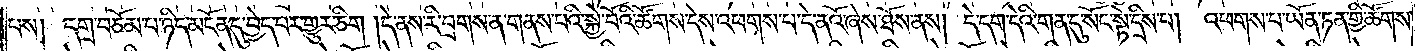པས། དགྲ་བཅོམ་པ་ཉིད་མངོན་དུ་བྱེད་པར་གྱུར་ཅིག །དེ་ནས་རི་བྲགས་ན་གནས་པའི་སྐྱེ་བོའི་ཚོགས་དེས་འཕགས་པ་དེ་ནའོ་ཞེས་ཐོས་ནས། དེ་དག་དེའི་གན་དུ་སོང་སྟེ་དྲིས་པ། འཕགས་པ་ཡོན་ཏན་གྱི་ཚོགས་
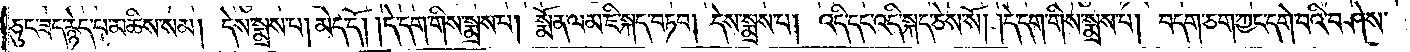ཅུང་ཟད་རྙེད་པ་མཆིས་སམ། དེས་སྨྲས་པ། མེད་དོ། །དེ་དག་གིས་སྨྲས་པ། སྨོན་ལམ་ཇི་སྐད་བཏབ། དེས་སྨྲས་པ། འདི་དང་འདི་སྐད་ཅེས་སོ། །དེ་དག་གིས་སྨྲས་པ། བདག་ཅག་ཀྱང་དགེ་བའི་བཤེས་
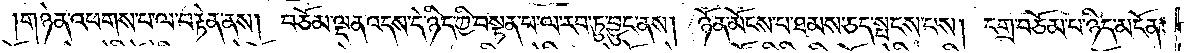གཉེན་འཕགས་པ་ལ་བརྟེན་ནས། བཅོམ་ལྡན་འདས་དེ་ཉིད་ཀྱི་བསྟན་པ་ལ་རབ་ཏུ་བྱུང་ནས། ཉོན་མོངས་པ་ཐམས་ཅད་སྤངས་པས། དགྲ་བཅོམ་པ་ཉིད་མངོན་
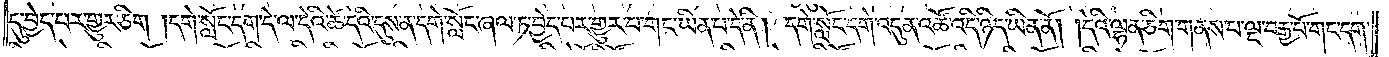དུ་བྱེད་པར་གྱུར་ཅིག །དགེ་སློང་དག་དེ་ལ་དེའི་ཚེ་དེའི་དུས་ན་དགེ་སློང་ཞལ་ཏ་བྱེད་པར་གྱུར་པ་གང་ཡིན་པ་དེ་ནི། དགེ་སློང་དགེ་འདུན་འཚོ་འདི་ཉིད་ཡིན་ནོ། །དེའི་ལྷན་ཅིག་གནས་པ་ལྔ་བརྒྱ་པོ་གང་དག་
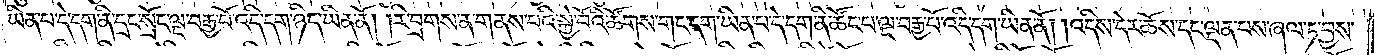ཡིན་པ་དེ་དག་ནི་དྲང་སྲོང་ལྔ་བརྒྱ་པོ་འདི་དག་ཉིད་ཡིན་ནོ། །རི་བྲགས་ན་གནས་པའི་སྐྱེ་བོའི་ཚོགས་གང་དག་ཡིན་པ་དེ་དག་ནི་ཚོང་པ་ལྔ་བརྒྱ་པོ་འདི་དག་ཡིན་ནོ། །འདིས་དེར་ཆོས་དང་ལྡན་པས་ཞལ་ཏ་བྱས་
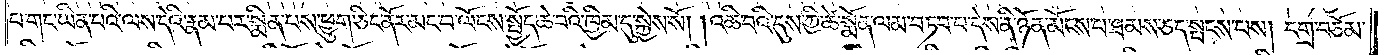པ་གང་ཡིན་པའི་ལས་དེའི་རྣམ་པར་སྨིན་པས་ཕྱུག་ཅིང་ནོར་མང་བ་ལོངས་སྤྱོད་ཆེ་བའི་ཁྱིམ་དུ་སྐྱེས་སོ། །འཆི་བའི་དུས་ཀྱི་ཚེ་སྨོན་ལམ་བཏབ་པ་དེས་ནི་ཉོན་མོངས་པ་ཐམས་ཅད་སྤངས་པས། དགྲ་བཅོམ་
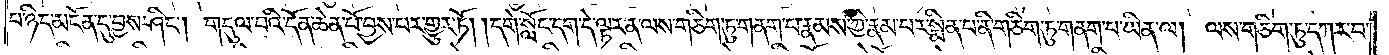པ་ཉིད་མངོན་དུ་བྱས་ཤིང༌། གདུལ་བའི་དོན་ཆེན་པོ་བྱས་པར་གྱུར་ཏོ། །དགེ་སློང་དག་དེ་ལྟར་ན་ལས་གཅིག་ཏུ་གནག་པ་རྣམས་ཀྱི་རྣམ་པར་སྨིན་པ་ནི་གཅིག་ཏུ་གནག་པ་ཡིན་ལ། ལས་གཅིག་ཏུ་དཀར་བ་
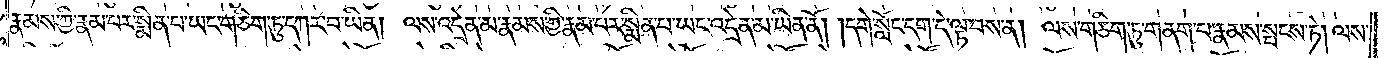རྣམས་ཀྱི་རྣམ་པར་སྨིན་པ་ཡང་གཅིག་ཏུ་དཀར་བ་ཡིན། ལས་འདྲེན་མ་རྣམས་ཀྱི་རྣམ་པར་སྨིན་པ་ཡང་འདྲེན་མ་ཡིན་ནོ། །དགེ་སློང་དག་དེ་ལྟ་བས་ན། ལས་གཅིག་ཏུ་གནག་པ་རྣམས་སྤངས་ཏེ། ལས་
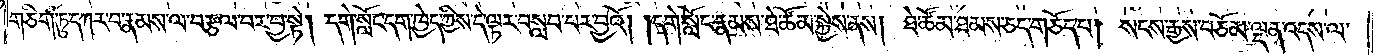གཅིག་ཏུ་དཀར་བ་རྣམས་ལ་བརྩལ་བར་བྱ་སྟེ། དགེ་སློང་དག་ཁྱེད་ཀྱིས་དེ་ལྟར་བསླབ་པར་བྱའོ། །དགེ་སློང་རྣམས་ཐེ་ཚོམ་སྐྱེས་ནས། ཐེ་ཚོམ་ཐམས་ཅད་གཅོད་པ། སངས་རྒྱས་བཅོམ་ལྡན་འདས་ལ་
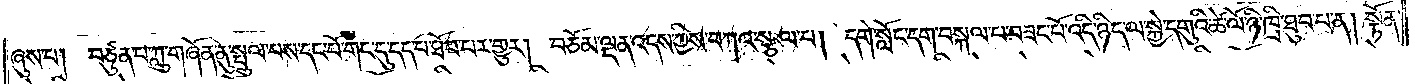ཞུས་པ། བཙུན་པ་ཀླུ་གཞོན་ནུ་སྤྲུལ་པས་དང་པོ་གང་དུ་དད་པ་ཐོབ་པར་གྱུར། བཅོམ་ལྡན་འདས་ཀྱིས་བཀའ་སྩལ་པ། དགེ་སློང་དག་བསྐལ་པ་བཟང་པོ་འདི་ཉིད་ལ་སྐྱེ་དགུའི་ཚེ་ལོ་ཉི་ཁྲི་ཐུབ་པ་ན། སྟོན་
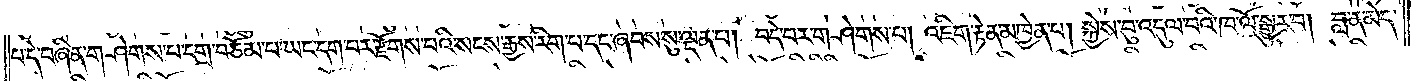པ་དེ་བཞིན་གཤེགས་པ་དགྲ་བཅོམ་པ་ཡང་དག་པར་རྫོགས་པའི་སངས་རྒྱས་རིག་པ་དང་ཞབས་སུ་ལྡན་པ། བདེ་བར་གཤེགས་པ། འཇིག་རྟེན་མཁྱེན་པ། སྐྱེས་བུ་འདུལ་བའི་ཁ་ལོ་སྒྱུར་བ། བླ་ན་མེད་
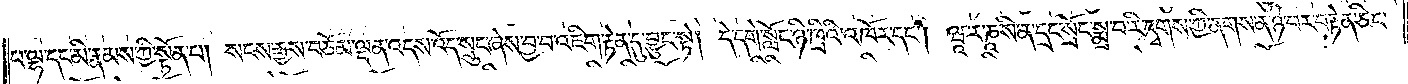པ་ལྷ་དང་མི་རྣམས་ཀྱི་སྟོན་པ། སངས་རྒྱས་བཅོམ་ལྡན་འདས་འོད་སྲུང་ཞེས་བྱ་བ་འཇིག་རྟེན་དུ་བྱུང་སྟེ། དེ་དགེ་སློང་ཉི་ཁྲིའི་འཁོར་དང༌། ཝཱ་ར་ཎཱ་སི་ན་དྲང་སྲོང་སྨྲ་བ་རི་དྭགས་ཀྱི་ནགས་ན་ཉེ་བར་བརྟེན་ཅིང་
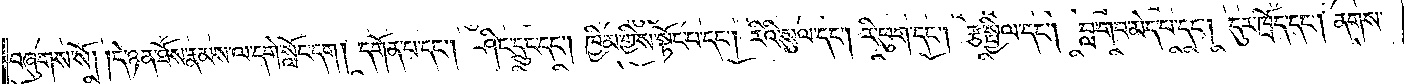བཞུགས་སོ། །དེ་ཉན་ཐོས་རྣམས་ལ་དགེ་སློང་དག། དགོན་པ་དང༌། ཤིང་དྲུང་དང༌། ཁྱིམ་གྱིས་སྟོང་པ་དང༌། རིའི་སུལ་དང༌། རི་ཕུག་དང༌། རྩ་སྤྱིལ་དང༌། བླ་གབ་མེད་པ་དང༌། དུར་ཁྲོད་དང༌། ནགས་
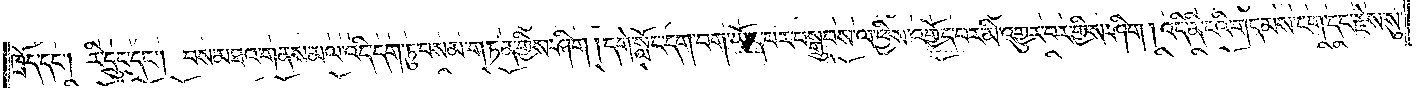ཁྲོད་དང༌། རི་དྲུང་དང༌། བས་མཐའ་གནས་མལ་འདི་དག་ཏུ་བསམ་གཏན་གྱིས་ཤིག །དགེ་སློང་དག་བག་ཡོད་པར་བསྒྲུབས་ལ་ཕྱིས་འགྱོད་པར་མི་འགྱུར་བར་གྱིས་ཤིག །འདི་ནི་ངའི་གདམས་ངག་དང་རྗེས་སུ་
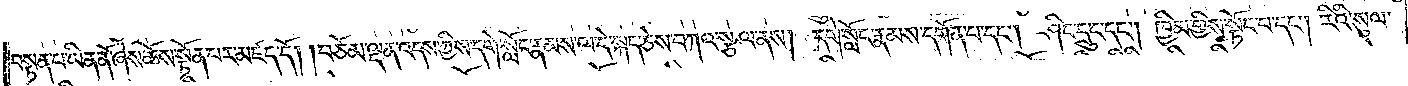བསྟན་པ་ཡིན་ནོ་ཞེས་ཆོས་སྟོན་པར་མཛད་དོ། །བཅོམ་ལྡན་འདས་ཀྱིས་དགེ་སློང་རྣམས་ལ་དེ་སྐད་ཅེས་བཀའ་སྩལ་ནས། དགེ་སློང་རྣམས་དགོན་པ་དང༌། ཤིང་དྲུང་དང༌། ཁྱིམ་གྱིས་སྟོང་པ་དང༌། རིའི་སུལ་
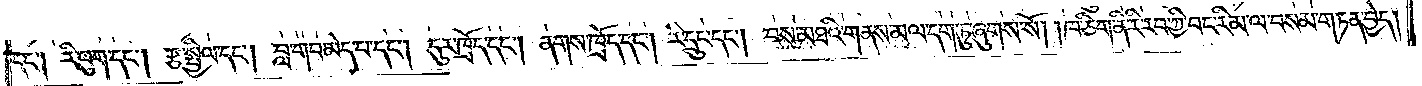དང༌། རི་ཕུག་དང༌། རྩ་སྤྱིལ་དང༌། བླ་གབ་མེད་པ་དང༌། དུར་ཁྲོད་དང༌། ནགས་ཁྲོད་དང༌། རི་དྲུང་དང༌། བས་མཐའི་གནས་མལ་དག་ཏུ་ཞུགས་སོ། །ཁ་ཅིག་ནི་རི་རབ་ཀྱི་བང་རིམ་ལ་བསམ་གཏན་བྱེད།
